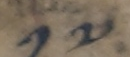༡༧
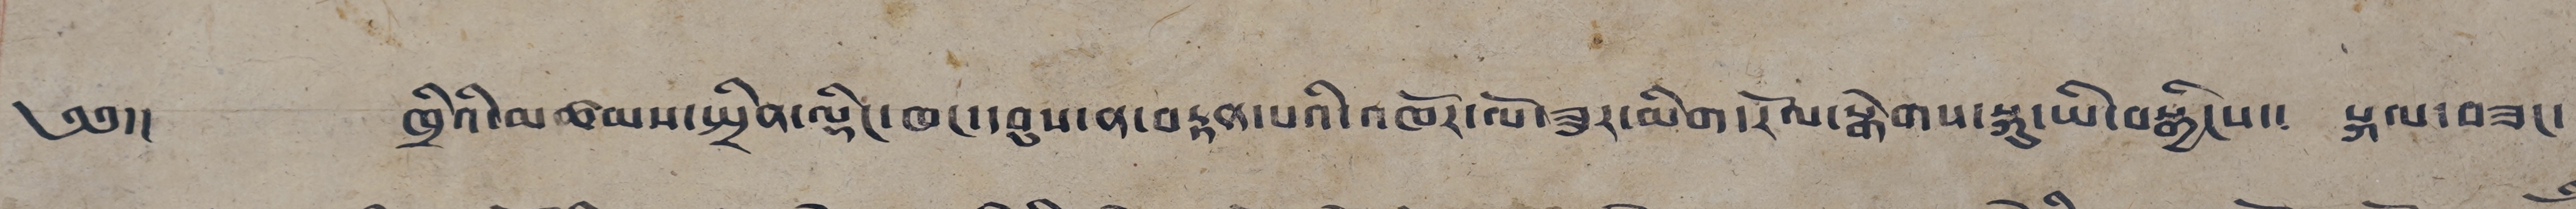༄༅།། ཁྲིའི་མཚམས་སྤྲིན་ལྡིང་ཁང་དབུས་ན་བརྟན་པའི་འཁོར་ལོ་ཟུར་མིག་རོལ་སྒེགས་སྐུ་ཡི་བསྒྱིངས་། སྐལ་བཟང་
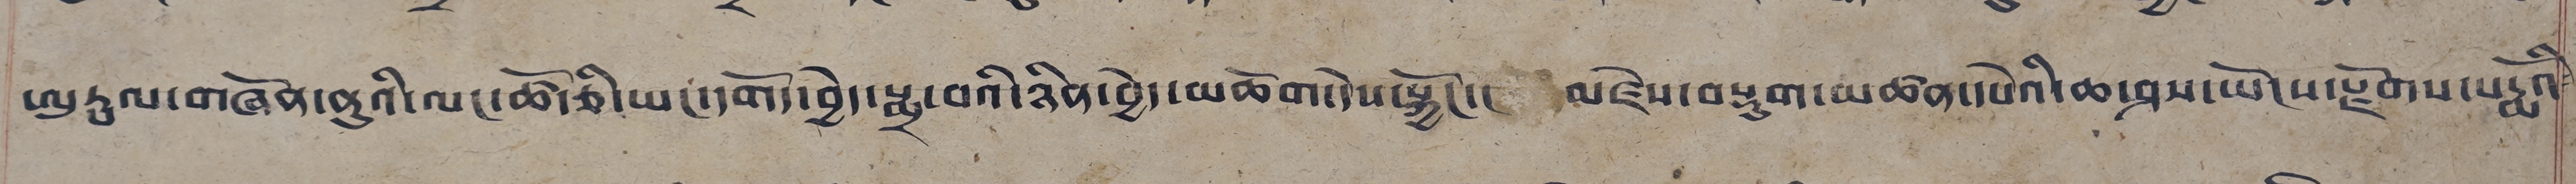ཨུ་ཏྤལ་གཞོན་ནུའི་ལང་ཚོ་ཅི་ཡང་དགོད་བྱེད་སྨྲ་བའི་ཉིན་བྱེད་མཆོག་དེས་སྐྱོང་། མཛེས་བསྡུག་མཚན་དཔེའི་ཆ་ཤས་ཡོངས་རྫོགས་པདྨོའི༴
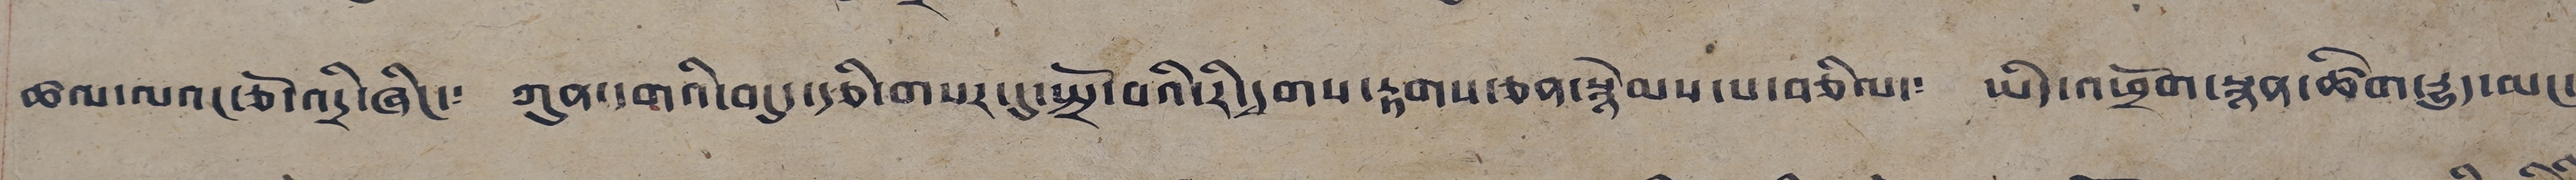ཚལ་ལའང་ཅོ་འདྲི་ཞིང་༴ ཀུན་དགའི་བདུད་རྩི་གསར་དུ་སྤྲོ་བའི་རི་དྭགས་རྟགས་ཅན་སྙེམས་པ་བཅིལ་༴ ཡིད་འཕྲོག་སྙན་ཚིགས་རྒྱུད་མང་
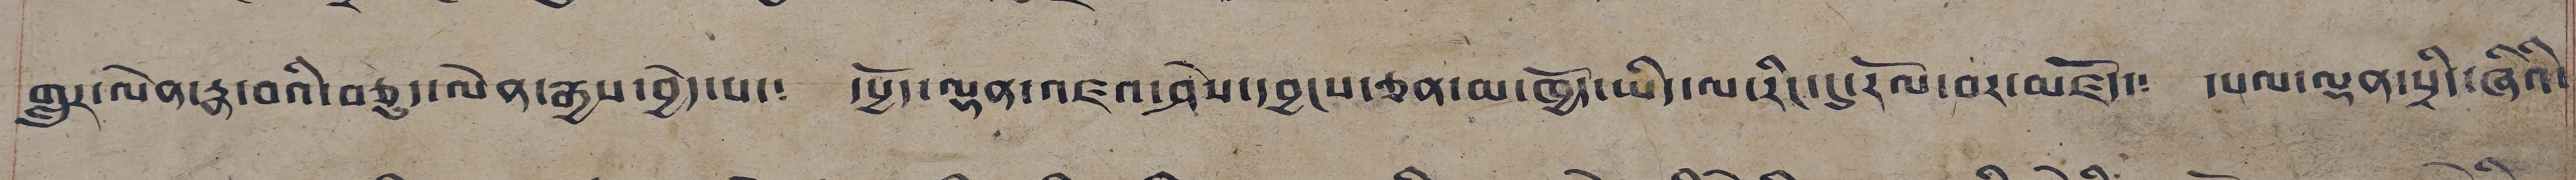གླུར་ལེན་རྣ་བའི་བཅུད་ལེན་རྒྱས་བྱེད་པ་༴ དཔྱོད་ལྡན་འཇའ་ཤེས་དབྱངས་ཅན་མ་ཁྱོད་ཡིད་ལ་རིང་དུ་རོལ་བར་མཛོད་༴ དཔལ་ལྡན་སྲིད་ཞིའི་
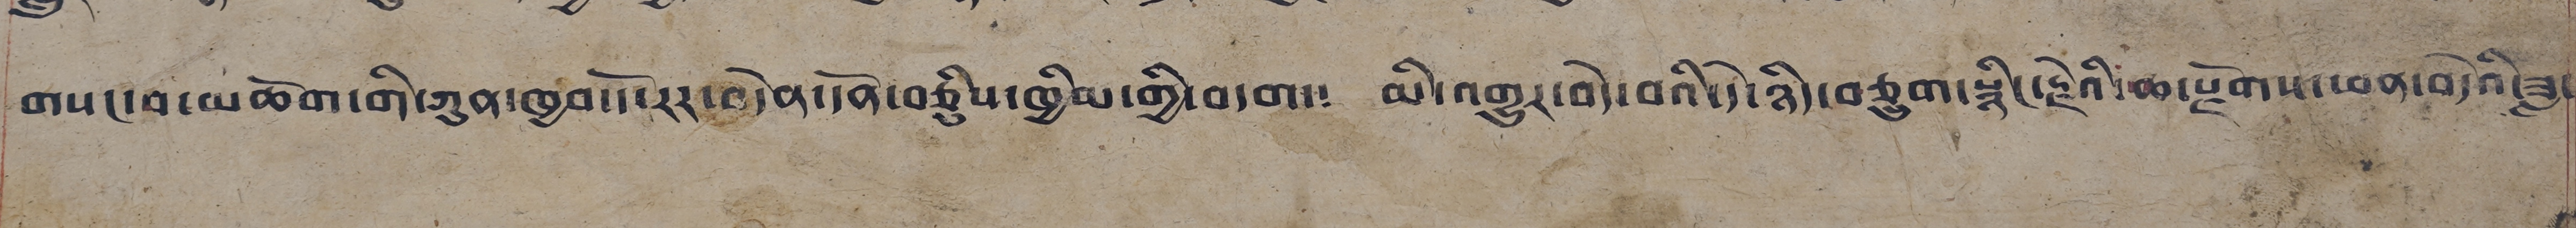གསང་བ་མཆོག་གི་ཀུན་ཁྱབ་དོ་རར་བདེན་དོན་བཅིུས་ཁྱིམ་གྱི་བདག་༴ མི་འགྱུར་བདེ་བའི་དེ་ཉི་བཅུག་རྙིང་རྗེའི་ཆ་རྫོགས་ཕན་བདེའི་ཟླ་
